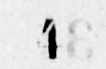4
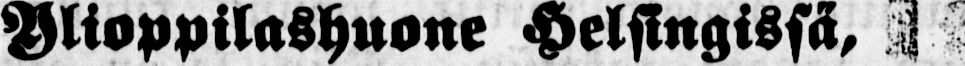Ylioppilashuone Helsingissä,
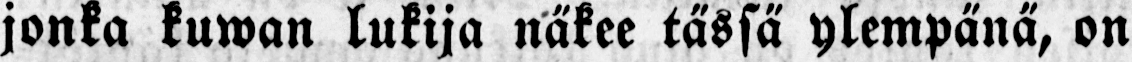jonka kuwan lukija näkee tässä ylempänä, on
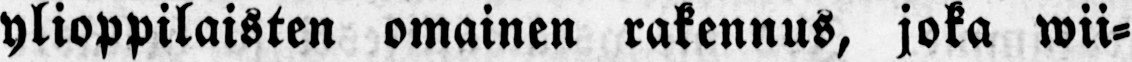ylioppilaisten omainen rakennus, joka wii-
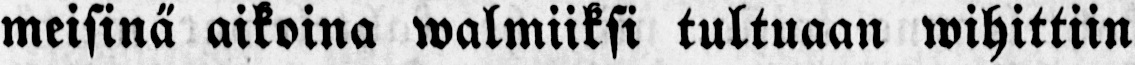meisinä aikoina walmiiksi tultuaan wihittiin
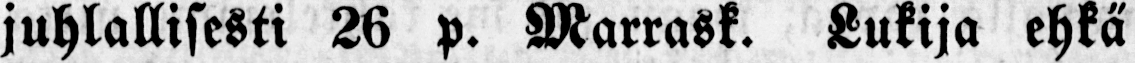juhlallisesti 26 p. Marrask. Lukija ehkä
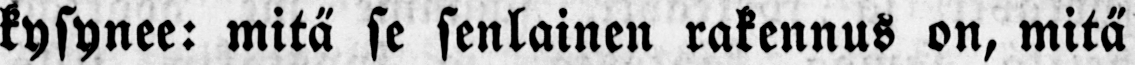kysynee: mitä se senlainen rakennus on, mitä
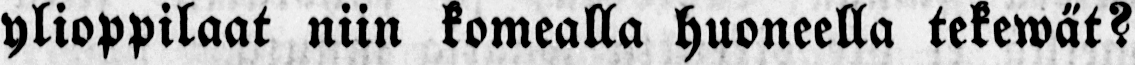ylioppilaat niin komealla huoneella tekewät?
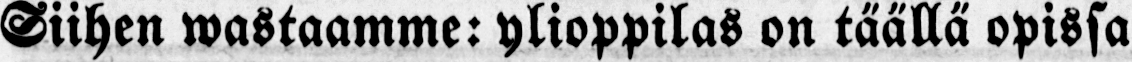Siihen wastaamme: ylioppilas on tää llä opissa
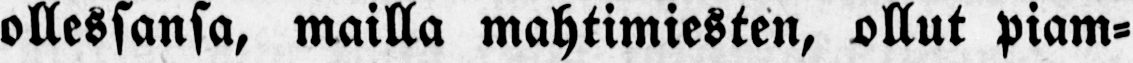ollessansa, mailla mahtimiesten, ollut piam-
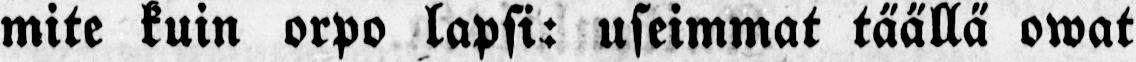mite kuin orpo lapsi: useimmat tää llä owat
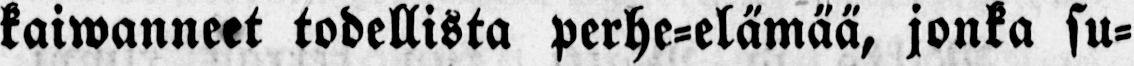kaiwanneet todellista perhe-elämää, jonka su-
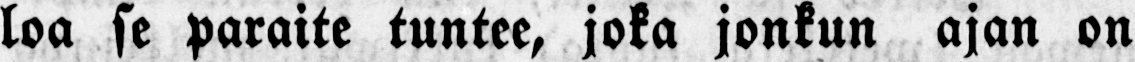loa se paraite tuntee, joka jonkun ajan on
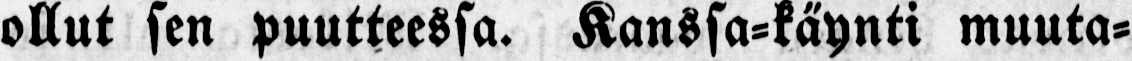ollut sen puutteessa. Kanssa-käynti muuta-
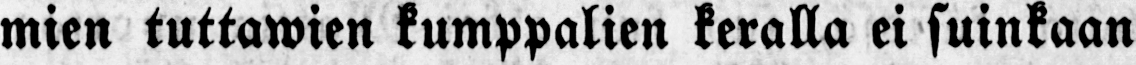mien tuttawien kumppalien keralla ei suinkaan
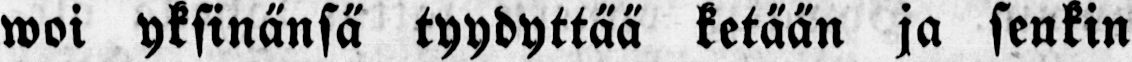woi yksinä nsä tyydyttää ketään ja senkin
